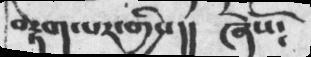བརྟག་པར་གྱིས།།  ཞེསོ༴
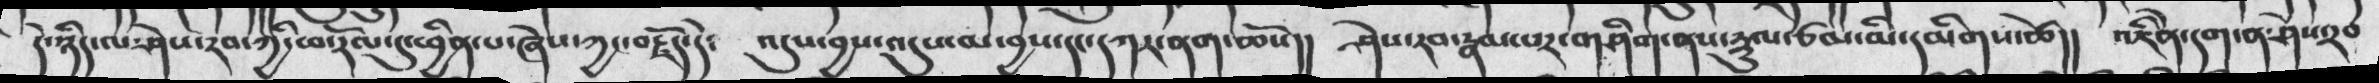དེ་ཉིད་ལ་ཤེས་རབ་ཀྱི་ཕ་རོལ་དུ་ཕྱིན་པ་ཞེས་ཀྱང་བརྗོད་དེ༴  འདུས་བྱས་འདུས་མ་བྱས་དང་དཀར་ནག་ཆོས།།  ཤེས་རབ་རྣམ་པར་གཤིག་ནས་རྡུལ་ཙམ་མི་དམིགས་ཚེ།།  འཇིེན་དག་ན་ཤེས་རབ
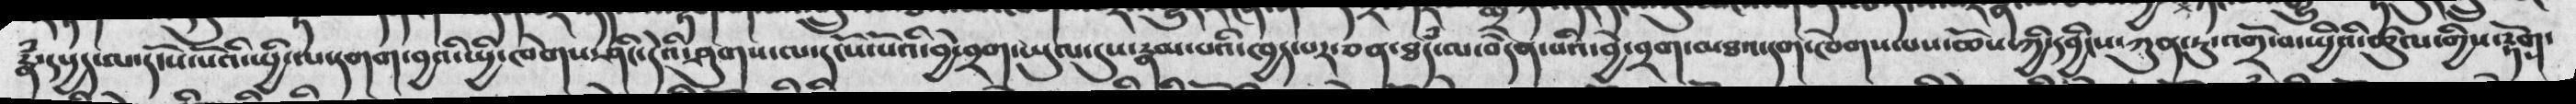རྣཾ་དཔྱད་ལ་དངོས་པོའི་སྤྱི་ལ་དགག་བྱའི་སྤྱི་ཁེགས་ཤིང་དེའི་ཤུགས་ལ་དངོས་པོའི་བྱེ་བྲག་ཡུལ་དུས་རྣམ་པའི་ཁྱད་པར་ཅན་ཐཾད་ལ་བདེན་པའི་བྱེ་བྲག་མཐའ་དག་ཁེགས་པས་ཆོས་ཀྱི་དབྱིངས་ཀུན་ཏུ་འགྲོ་བ་སྤྱིའི་ཚུལ་གྱིས་རྟོགས་
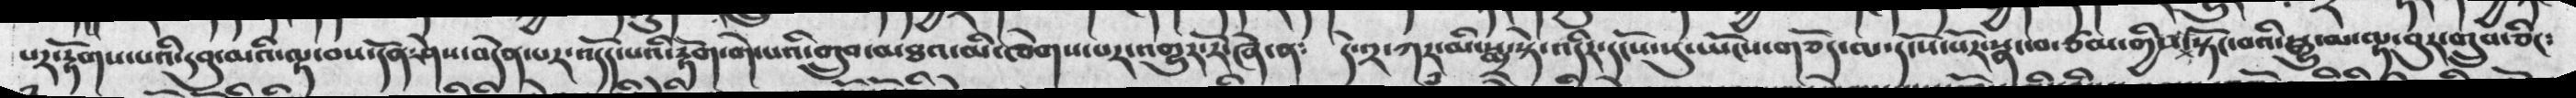པར་རྟོགས་པའི་དབུ་མའི་ལྟ་བས་དོན་ཤེས་བདེན་པར་འདོད་པའི་རྟོག་གེ་པའི་གྲུབ་མཐའ་མི་ཁེགས་པར་འགྱུར་རོ་ཞེ་ན༴  དེ་༢་ཀར་མི་སྨྲ་སྟེ་འདིར་དངོས་སུ་ཡོངས་གཅོད་ལ་དེ་སོ་སོར་སྣང་བ་ཙམ་གྱིས་སྟོང་བའི་སྒྱུ་མ་ལྟ་བུར་གྲུབ་ཅིང༴
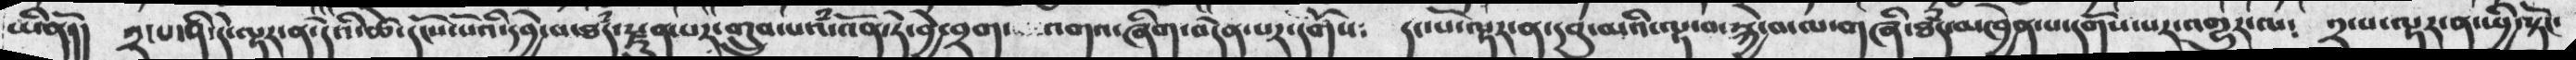ཡིནོ།།   ༢་པ་ནི་དེ་ལྟར་ན་དེའི་ཚེ་དངོས་པོའི་དབྱེ་པ་ཐཾད་རྫུན་པར་གྲུབ་པ་འཾ་འོན་ཏེ་བྱེ་བྲག་  འགའ་ཞིག་བདེན་པར་དགོས༴  དང་པོ་ལྟར་ན་དབུ་མའི་ལྟ་བ་སྐྱེ་བ་གཞི་ཐཾད་མཁྱེན་པ་དགོས་པར་འགྱུར་ལ༴  ༢་པ་ལྟར་ན་ཕྱི་སྟོང་
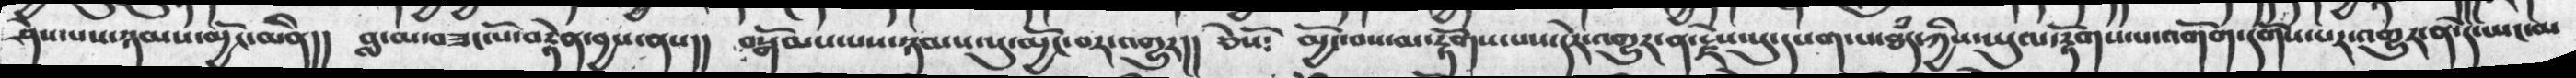ཤེས་པས་ཉམས་མྱོང་མིན།།  བླ་མ་བཟང་པོ་བརྟེན་བྱས་ནས།།  བསྒོམས་པས་ཉམས་སུ་མྱོང་བར་འགྱུར།།   ཅེསོ༴  མྱོང་བས་མ་རྟོགས་པས་དེར་འགྱུར་ན་རྗེས་སུ་དཔག་པ་ཐཾད་ཀྱིས་ཡུལ་རྟོགས་པ་འགོག་དགོས་པར་འགྱུར་ན་དེ་ཡང་མ
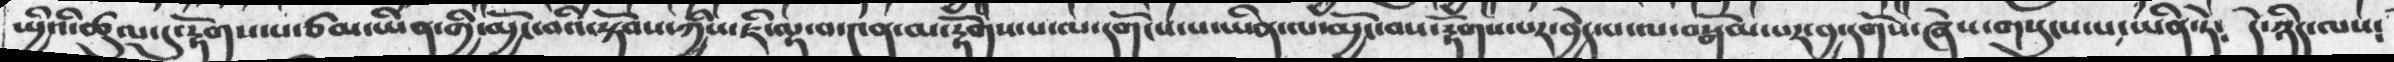སྤྱིའི་ཚུལ་དུ་རྟོགས་པ་ཙམ་ཡིན་གྱི་མྱོང་བའི་སྟོབས་ཀྱིས་ཇི་ལྟ་བ་༤ན་མ་རྟོགས་པ་ལ་དགོངས་པ་ཡིན་ལ་མྱོང་བས་རྟོགས་པར་བྱེད་པ་ལ་བསྒོམ་པར་བྱ་དགོས་ཞེས་གསུངས་པ་ཡིན་དེ༴  དེ་ཉིད་ལས༴
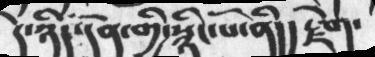དེ་ཉིད་དོན་གྱི་སྙིང་པོ་ནི།།   རྫེག་
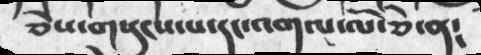ཅེས་གསུངས་པ་དང་འགལ་ལོ་ཅེ་ན༴
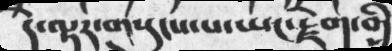དེ་ལྟར་གསུངས་པ་ཡང་རྗེགགི
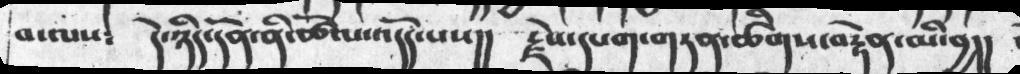བ་ལས༴   དེ་ཉིད་དོན་ནི་ཚོལ་འདོད་པས།།   རྗེས་དཔག་གཏན་ཚིགས་བརྟེན་མི་བྱ།།
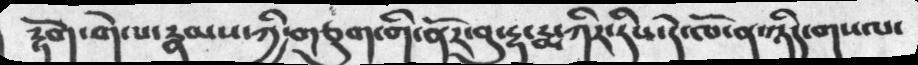རྟོག་གེ་པ་རྣམས་ཀྱི་གཅུག་གི་ནོར་བུ་རྡ་རྨ་ཀིར་ཏིས་དེ་ཁོ་ན་ཉིད་གསལ་
